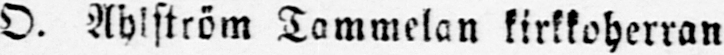O. Ahlström Tammelan kirkkoherran
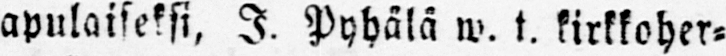apulaiseksi, I. Pyhälä w. t. kirkkoher-
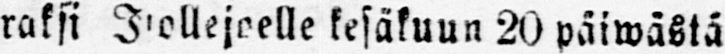raksi Isollejoelle kesäkuun 20 päiwästä
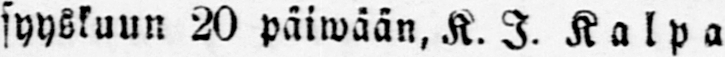syyskuun 20 päiwään, K. I. Kalpa
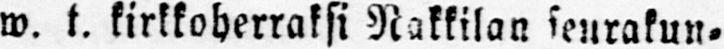w. t. kirkkoherraksi Nakkilan seurakun.
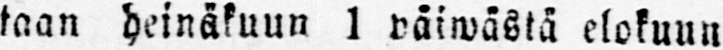taan heinäkuun 1 päiwästä elokuun
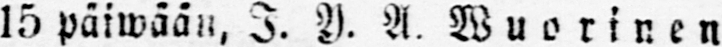15 päiwään, I. Y. A. Wuorinen
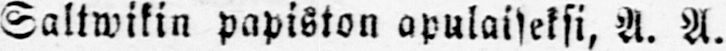Saltwikin papiston apulaiseksi, A. A.
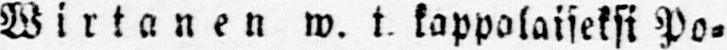Wirtanen w. t kappalaiseksi Po-
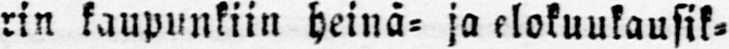rin kaupunkiin heinä- ja elokuukausik-
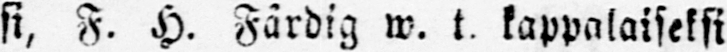si, F. H. Färdig w. t. kappalaiseksi
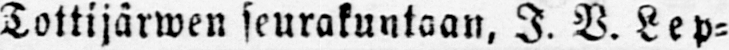Tottijärwen seurakuntaan, I. V. Lep-
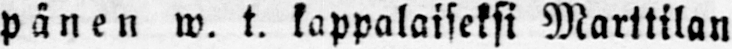pänen w. t. kappalaiseksi Marttilan
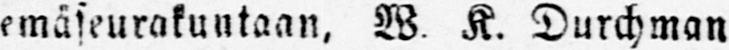emäseurakuntaan, W. K. Durchman
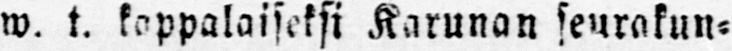w. t. kappalaiseksi Karunan seurakun-
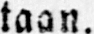taan.
